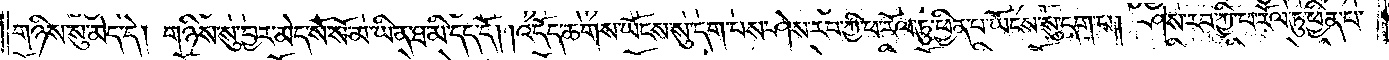གཉིས་སུ་མེད་དེ། གཉིས་སུ་བྱར་མེད་སོ་སོ་མ་ཡིན་ཐ་མི་དད་དོ། །འདོད་ཆགས་ཡོངས་སུ་དག་པས་ཤེས་རབ་ཀྱི་ཕ་རོལ་ཏུ་ཕྱིན་པ་ཡོངས་སུ་དག་པ། ཤེས་རབ་ཀྱི་ཕ་རོལ་ཏུ་ཕྱིན་པ་
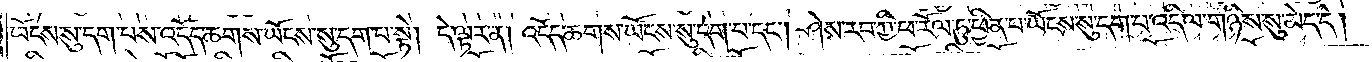ཡོངས་སུ་དག་པས་འདོད་ཆགས་ཡོངས་སུ་དག་པ་སྟེ། དེ་ལྟར་ན། འདོད་ཆགས་ཡོངས་སུ་དག་པ་དང༌། ཤེས་རབ་ཀྱི་ཕ་རོལ་ཏུ་ཕྱིན་པ་ཡོངས་སུ་དག་པ་འདི་ལ་གཉིས་སུ་མེད་དེ།
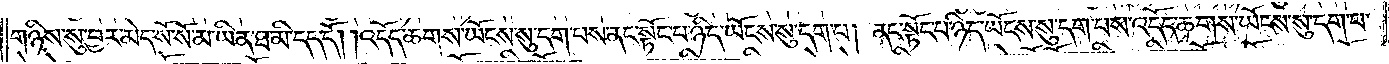གཉིས་སུ་བྱར་མེད་སོ་སོ་མ་ཡིན་ཐ་མི་དད་དོ། །འདོད་ཆགས་ཡོངས་སུ་དག་པས་ནང་སྟོང་པ་ཉིད་ཡོངས་སུ་དག་པ། ནང་སྟོང་པ་ཉིད་ཡོངས་སུ་དག་པས་འདོད་ཆགས་ཡོངས་སུ་དག་པ་
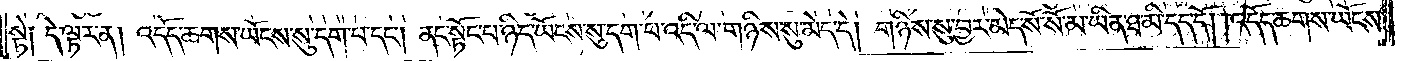སྟེ༑ དེ་ལྟར་ན། འདོད་ཆགས་ཡོངས་སུ་དག་པ་དང༌། ནང་སྟོང་པ་ཉིད་ཡོངས་སུ་དག་པ་འདི་ལ་གཉིས་སུ་མེད་དེ། གཉིས་སུ་བྱར་མེད་སོ་སོ་མ་ཡིན་ཐ་མི་དད་དོ། །འདོད་ཆགས་ཡོངས་
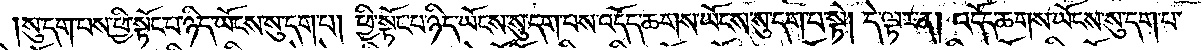སུ་དག་པས་ཕྱི་སྟོང་པ་ཉིད་ཡོངས་སུ་དག་པ། ཕྱི་སྟོང་པ་ཉིད་ཡོངས་སུ་དག་པས་འདོད་ཆགས་ཡོངས་སུ་དག་པ་སྟེ། དེ་ལྟར་ན། འདོད་ཆགས་ཡོངས་སུ་དག་པ་
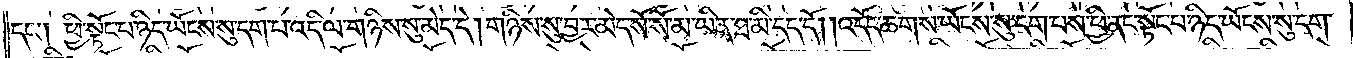དང༌། ཕྱི་སྟོང་པ་ཉིད་ཡོངས་སུ་དག་པ་འདི་ལ་གཉིས་སུ་མེད་དེ། གཉིས་སུ་བྱར་མེད་སོ་སོ་མ་ཡིན་ཐ་མི་དད་དོ། །འདོད་ཆགས་ཡོངས་སུ་དག་པས་ཕྱི་ནང་སྟོང་པ་ཉིད་ཡོངས་སུ་དག་
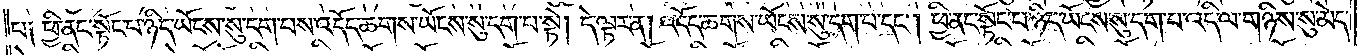པ༑ ཕྱི་ནང་སྟོང་པ་ཉིད་ཡོངས་སུ་དག་པས་འདོད་ཆགས་ཡོངས་སུ་དག་པ་སྟེ། དེ་ལྟར་ན། འདོད་ཆགས་ཡོངས་སུ་དག་པ་དང༌། ཕྱི་ནང་སྟོང་པ་ཉིད་ཡོངས་སུ་དག་པ་འདི་ལ་གཉིས་སུ་མེད་
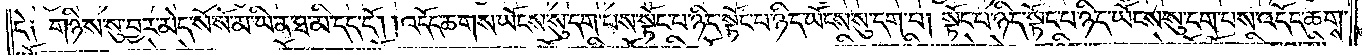དེ༑ གཉིས་སུ་བྱར་མེད་སོ་སོ་མ་ཡིན་ཐ་མི་དད་དོ། །འདོད་ཆགས་ཡོངས་སུ་དག་པས་སྟོང་པ་ཉིད་སྟོང་པ་ཉིད་ཡོངས་སུ་དག་པ། སྟོང་པ་ཉིད་སྟོང་པ་ཉིད་ཡོངས་སུ་དག་པས་འདོད་ཆགས་
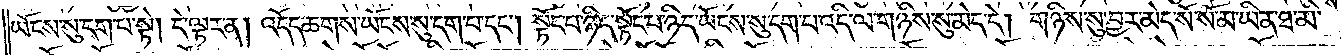ཡོངས་སུ་དག་པ་སྟེ། དེ་ལྟར་ན། འདོད་ཆགས་ཡོངས་སུ་དག་པ་དང༌། སྟོང་པ་ཉིད་སྟོང་པ་ཉིད་ཡོངས་སུ་དག་པ་འདི་ལ་གཉིས་སུ་མེད་དེ། གཉིས་སུ་བྱར་མེད་སོ་སོ་མ་ཡིན་ཐ་མི་
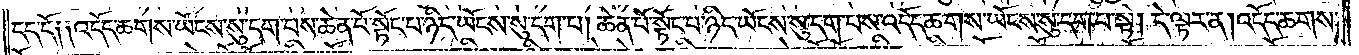དད་དོ༑ ༑འདོད་ཆགས་ཡོངས་སུ་དག་པས་ཆེན་པོ་སྟོང་པ་ཉིད་ཡོངས་སུ་དག་པ། ཆེན་པོ་སྟོང་པ་ཉིད་ཡོངས་སུ་དག་པས་འདོད་ཆགས་ཡོངས་སུ་དག་པ་སྟེ། དེ་ལྟར་ན། འདོད་ཆགས་
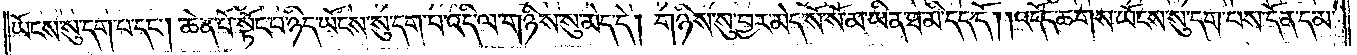ཡོངས་སུ་དག་པ་དང༌། ཆེན་པོ་སྟོང་པ་ཉིད་ཡོངས་སུ་དག་པ་འདི་ལ་གཉིས་སུ་མེད་དེ། གཉིས་སུ་བྱར་མེད་སོ་སོ་མ་ཡིན་ཐ་མི་དད་དོ། །འདོད་ཆགས་ཡོངས་སུ་དག་པས་དོན་དམ་
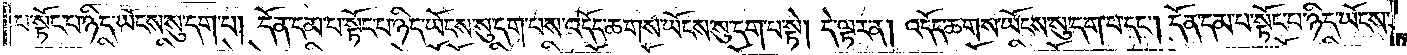པ་སྟོང་པ་ཉིད་ཡོངས་སུ་དག་པ། དོན་དམ་པ་སྟོང་པ་ཉིད་ཡོངས་སུ་དག་པས་འདོད་ཆགས་ཡོངས་སུ་དག་པ་སྟེ། དེ་ལྟར་ན། འདོད་ཆགས་ཡོངས་སུ་དག་པ་དང༌། དོན་དམ་པ་སྟོང་པ་ཉིད་ཡོངས་
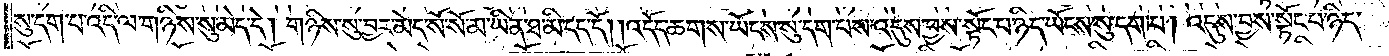སུ་དག་པ་འདི་ལ་གཉིས་སུ་མེད་དེ། གཉིས་སུ་བྱར་མེད་སོ་སོ་མ་ཡིན་ཐ་མི་དད་དོ། །འདོད་ཆགས་ཡོངས་སུ་དག་པས་འདུས་བྱས་སྟོང་པ་ཉིད་ཡོངས་སུ་དག་པ། འདུས་བྱས་སྟོང་པ་ཉིད་
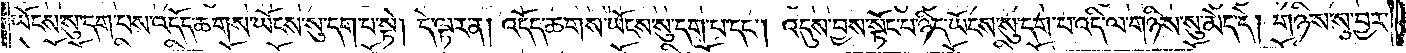ཡོངས་སུ་དག་པས་འདོད་ཆགས་ཡོངས་སུ་དག་པ་སྟེ། དེ་ལྟར་ན། འདོད་ཆགས་ཡོངས་སུ་དག་པ་དང༌། འདུས་བྱས་སྟོང་པ་ཉིད་ཡོངས་སུ་དག་པ་འདི་ལ་གཉིས་སུ་མེད་དེ། གཉིས་སུ་བྱར་
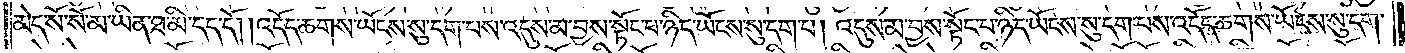མེད་སོ་སོ་མ་ཡིན་ཐ་མི་དད་དོ། །འདོད་ཆགས་ཡོངས་སུ་དག་པས་འདུས་མ་བྱས་སྟོང་པ་ཉིད་ཡོངས་སུ་དག་པ། འདུས་མ་བྱས་སྟོང་པ་ཉིད་ཡོངས་སུ་དག་པས་འདོད་ཆགས་ཡོངས་སུ་དག་
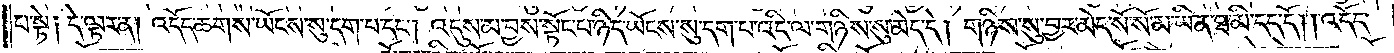པ་སྟེ༑ དེ་ལྟར་ན། འདོད་ཆགས་ཡོངས་སུ་དག་པ་དང༌། འདུས་མ་བྱས་སྟོང་པ་ཉིད་ཡོངས་སུ་དག་པ་འདི་ལ་གཉིས་སུ་མེད་དེ། གཉིས་སུ་བྱར་མེད་སོ་སོ་མ་ཡིན་ཐ་མི་དད་དོ། །འདོད་
